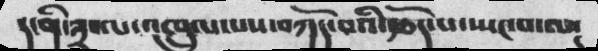།་ནི་༣་ལ་འཁྲུལ་པས་བཀོད་བའི་རྩོད་པ་སྤང་བ་ལ་
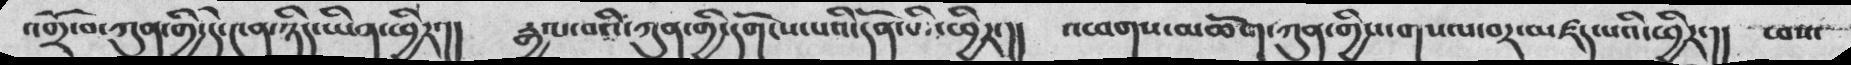འགྲོ་བ་ཀུན་གྱི་དེ་༤ན་ཉིད་ཡིན་ཕྱིར་།།  རྒྱལ་བའི་ཀུན་གྱི་དགོངས་པའི་དོན་ཅི་ཕྱིར་།།  འཕགས་མཆོག་ཀུན་གྱིས་གསལ་བར་མཛད་པའི་ཕྱིར་།།  ཕས་
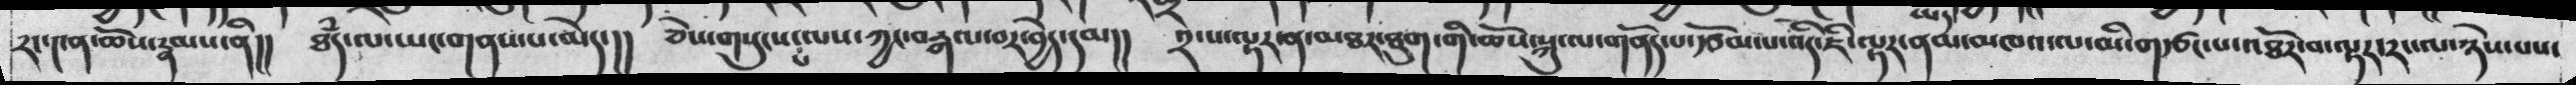རང་༤ན་ཆོས་རྣམས་ནི།།  ཐཾད་ལ་ཡང་གནས་པ་མེད་།།  ཅེས་གསུངས་པ་ལས་ཀྱང་བརྒལ་བར་བྱེད་དམ།། ༢་པ་ལྟར་ན་མཐར་ཐུག་གི་ཆོས་སྐུ་ལ་གནོད་པ་རྩོམ་པ་འདི་ཇི་ལྟར་ནམ་མཁའ་ལ་མི་གཙང་པ་འཐོར་བ་ལྟར་རང་ལ་ཉེས་པས་
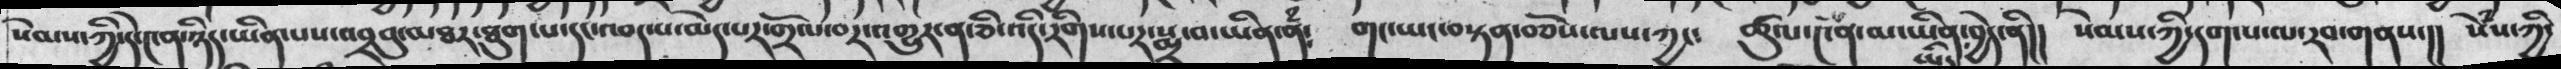སེམས་ཀྱི་དེ་༤ན་ཉིད་ཡིན་པས་འབྲསུ་མཐར་ཐུག་པ་དང་འབད་པ་མེད་པར་གྲོལ་བར་འགྱུར་ན་ཅི་རིགས་པར་སྨྲ་བ་ཡིན་ནཾ༴   གང་ཡང་བསྟན་བཅོས་ལས་ཀྱང༴   ཚུལ་༤ན་མ་ཡིན་ཡིད་བྱེད་ནི།།   སེམས་ཀྱི་དག་པ་ལ་རབ་གནས་།།  སེཾས་ཀྱི་
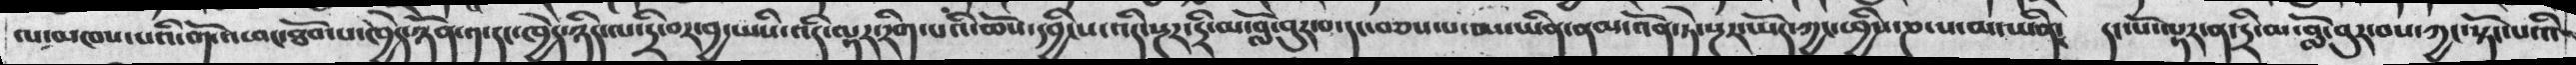ལ་མཁས་པའི་གོ་འཕང་ཐོབ་པ་ཁྱེད་ཉིད་༡་དང་ཁྱེད་ཉིད་ལ་དྲི་བར་བྱ་ཡིས་འདི་ལྟར་རིག་པའི་ཆོས་དབྱིངས་འདི་སྔར་དྲི་མ་བློ་བུར་བ་དང་བཅས་པ་མ་ཡིན་ནམ་འོན་ཏེ་སྔར་ཡོད་ཀྱང་ཕྱིས་ཎ་པ་མ་ཡིན།   དང་པོ་ལྟར་ན་དྲི་མ་བློ་བུར་བས་ཀྱང་སྟོང་པའི་
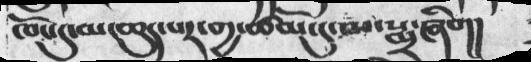ཁོང་དུ་མ་ཆུད་པར་གྱ་ཚོམ་ངུ་མ་སྨྲ་ཞིག།
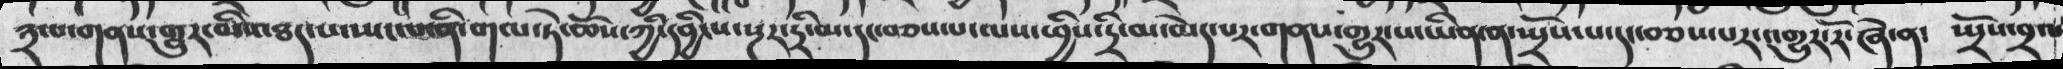༣་པ་གནས་གྱུར་མིས་ཐར་པ་ཡང་པ་ནི་གལ་ཏེ་ཆོས་ཀྱི་དབྱིངས་སྔར་དྲི་མ་དང་བཅས་པ་ལས་ཕྱིས་དྲི་མ་མེད་པར་གནས་གྱུར་པ་ཡིན་་ན་སྤྲོས་པ་དང་བཅས་པར་གྱུར་རོ་ཞེ་ན་  སྤྲོས་བྲལ
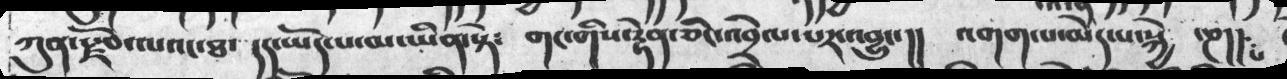ཀུན་རྫོབ་ལའང་ཐ་དད་ཡོད་པ་མ་ཡིན་སྟེ༴   གང་གིས་རྟེན་ཅིང་འབྲེལ་པར་འབྱུང་།།  འགག་པ་མེད་པ་སྐྱེ  ་ཎ་།།
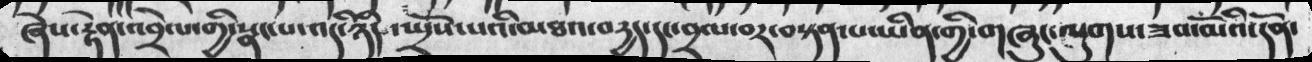ཞེས་རྟེན་འབྲེལ་གྱི་སྣང་པ་འདི་ཉིད་སྤྲོས་པའི་མཐའ་བདྱད་དང་བྲལ་བར་བསྟན་པ་ཡིན་གྱི་གཞུང་ལུགས་ཟབ་མོའི་དོན་
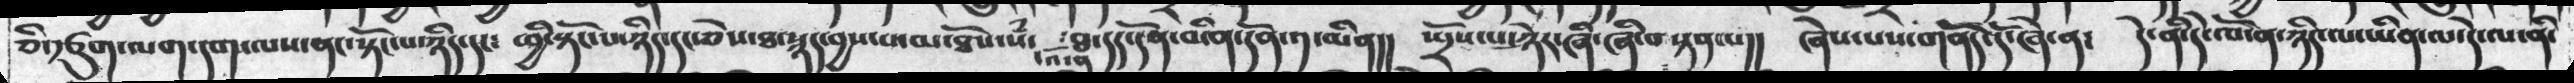ཅི་རྩུག་ལག་དག་ལས་ནང་སྟོང་པ་ཉིད་དང༴   ཕྱི་སྟོང་པ་ཉིད་དང་ཅེས་ཐ་སྙད་བྱས་པ་མ་ཐོས་སཾ་  འོ་ན་ཐ་དད་དོན་མིན་དོན་༡་མིན།།  སྤྲོས་པ་ཉེར་ཞི་ཞི་བསྟན་པ།།   ཞེས་པས་གནོད་དོ་ཞེ་ན་   དེ་ནི་དེ་ལོ་ན་ཉིད་ལ་ཡིན་ལ་དེ་ལ་ནི་
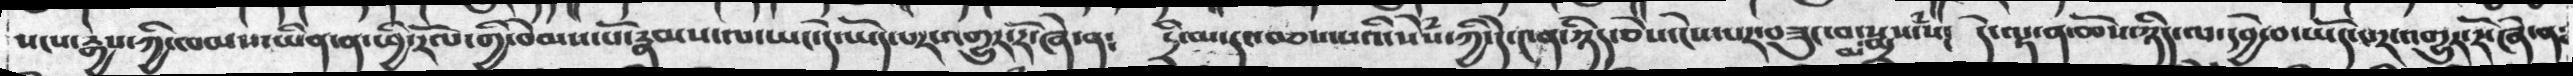སངས་རྒྱས་ཀྱི་ཁམས་ཡིན་ན་ཕྱི་རོལ་གྱི་བེམས་པོ་རྣམས་ལ་ཡང་དེ་ཡོད་པར་འགྱུར་རོ་ཞེ་ན༴  དྲི་མ་དང་བཅས་པའི་སེཾས་ཀྱི་དེ་༤ན་ཉིད་ཅེས་ངེས་པར་བཟུང་བ་མ་སྨྲས་སཾ།   དེ་ལྟ་ན་ཆོས་ཉིད་ལ་དབྱེ་བ་ཡོད་པར་འགྱུར་རོ་ཞེ་ན༴
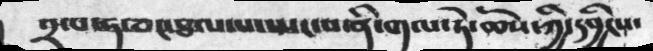༢་པ་ཧ་ཅང་ཐལ་པ་སྤང་པ་ནི་གལ་ཏེ་ཆོས་ཀྱི་དབྱིངས་
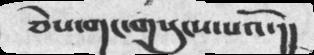ཅེས་གང་གསུངས་པའོ་།།
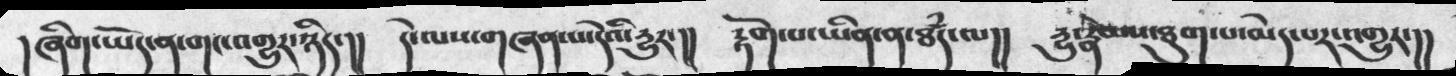།ཞིག་ཡོད་ན་གང་འགྱུར་ཉིད་།།  དེ་ལས་གཞན་ཡ་དེའི་རྱུར་།།  རྟོག་པ་ཡིན་ན་ཐཾད་ལ།།  རྱུ་རྣམས་ཐུག་པ་མེད་པར་འགྱུར་།།
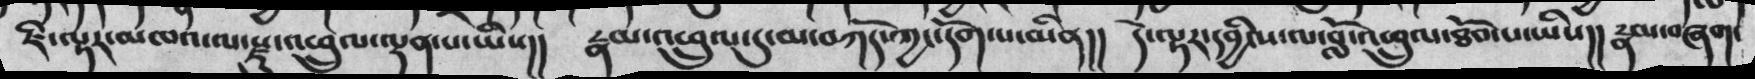ཇི་ལྟར་མཁའ་ལ་རྫུ་འཕྲུལ་ལྡན་པ་ཡིས།།  རྣམ་འཕྲུལ་དུ་མ་བཀོད་ཀྱང་དོག་པ་མིན།།  དེ་ལྟར་དབྱིངས་ལ་བློ་འཕྲུལ་ཐོབ་པ་ཡིས།།   རྣམ་བཞག་
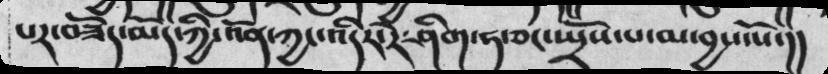པར་བཟོད་མོད་ཀྱི་འོན་ཀྱང་འདིར་རེ་ཤིག་ཧ་ཅང་སྤྲོས་པ་མ་བྱས་སོ་།།
